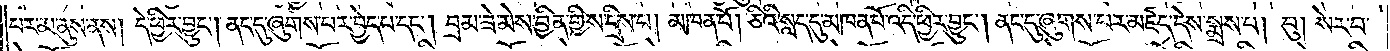པར་མ་ནུས་ནས། དེ་ཕྱིར་བྱུང༌། ནང་དུ་ཞུགས་པར་བྱེད་པ་དང༌། བྲམ་ཟེ་མེས་བྱིན་གྱིས་དྲིས་པ། མཁན་པོ། ཅིའི་སླད་དུ་མཁན་པོ་འདི་ཕྱིར་བྱུང༌། ནང་དུ་ཞུགས་པར་མཛད་དེས་སྨྲས་པ། བུ། སེར་བ་
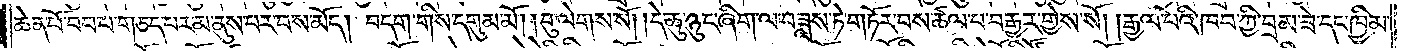ཆེན་པོ་བབ་པ་གཅད་པར་མ་ནུས་པར་བས་མོད། བདག་གིས་དགུམ་མོ། བུ་ལེགས་སོ། །དེ་ཆུ་ཉུང་ཞིག་ལ་བཟླས་ཏེ་གཏོར་བས་ཚལ་པ་བརྒྱར་གྱེས་སོ། །རྒྱལ་པོའི་ཁབ་ཀྱི་བྲམ་ཟེ་དང་ཁྱིམ་
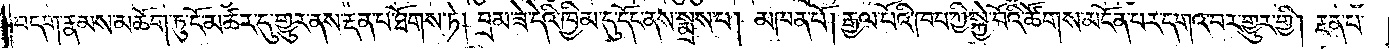བདག་རྣམས་མཆོག་ཏུ་ངོ་མཚར་དུ་གྱུར་ནས་རྔན་པ་ཐོགས་ཏེ། བྲམ་ཟེ་དེའི་ཁྱིམ་དུ་དོང་ནས་སྨྲས་པ། མཁན་པོ། རྒྱལ་པོའི་ཁབ་ཀྱི་སྐྱེ་བོའི་ཚོགས་མངོན་པར་དགའ་བར་གྱུར་གྱི། རྔན་པ་
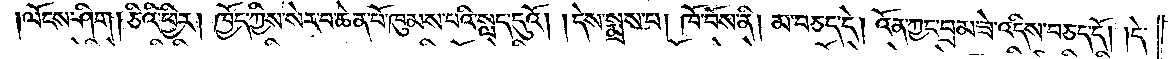ལོངས་ཤིག །ཅིའི་ཕྱིར། ཁྱོད་ཀྱིས་སེར་བ་ཆེན་པོ་ཁུམས་པའི་སླད་དུའོ། །དེས་སྨྲས་པ། ཁོ་བོས་ནི། མ་བཅད་དེ། འོན་ཀྱང་བྲམ་ཟེ་འདིས་བཅད་དོ། །དེ་
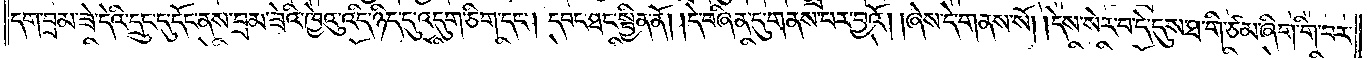དག་བྲམ་ཟེ་དེའི་དྲུང་དུ་དོང་ནས་བྲམ་ཟེའི་ཁྱེའུ་འདི་ཉིད་དུ་འདུག་ཅིག་དང༌། དབང་ཐང་སྦྱིན་ནོ། །དེ་བཞིན་དུ་གནས་པར་བྱའོ། །ཞེས་དེ་གནས་སོ། །དེས་སེར་བ་དེ་དུས་ཐ་གི་ཙམ་ཞིག་གི་བར་
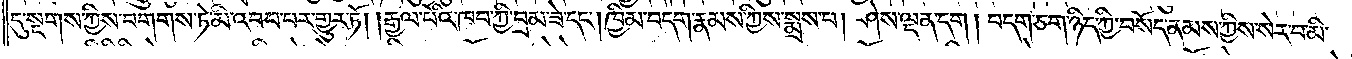དུ་སྔགས་ཀྱིས་བགགས་ཏེ་མི་འབབ་པར་གྱུར་ཏོ། །རྒྱལ་པོའི་ཁབ་ཀྱི་བྲམ་ཟེ་དང༌། ཁྱིམ་བདག་རྣམས་ཀྱིས་སྨྲས་པ། ཤེས་ལྡན་དག །བདག་ཅག་ཉིད་ཀྱི་བསོད་ནམས་ཀྱིས་སེར་བ་མི་
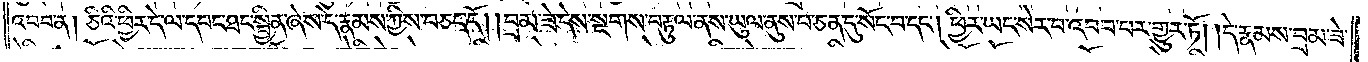འབབ་ན། ཅིའི་ཕྱིར་དེ་ལ་དབང་ཐང་སྦྱིན་ཞེས་དེ་རྣམས་ཀྱིས་བཅད་དོ། །བྲམ་ཟེ་དེས་སྔགས་བརྟུལ་ནས་ཡུལ་ནུས་པ་ཅན་དུ་སོང་བ་དང་ཕྱིར་ཡང་སེར་བ་འབབ་པར་གྱུར་ཏོ། །དེ་རྣམས་བྲམ་ཟེ་
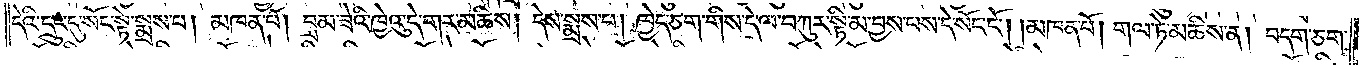དེའི་དྲུང་དུ་སོང་སྟེ་སྨྲས་པ། མཁན་པོ། བྲམ་ཟེའི་ཁྱེའུ་དེ་གར་མཆིས། དེས་སྨྲས་པ། ཁྱེད་ཅག་གིས་དེ་ལ་བཀུར་སྟི་མ་བྱས་པས་དེ་སོང་ངོ༌། །མཁན་པོ། གལ་ཏེ་མཆིས་ན། བདག་ཅག་
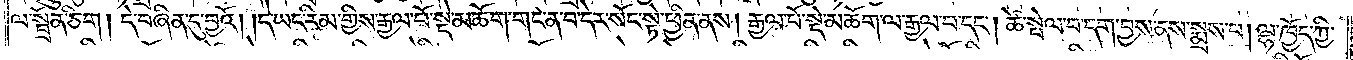ལ་སྦྲོན་ཅིག །དེ་བཞིན་དུ་བྱའོ། །དེ་ཡང་རིམ་གྱིས་རྒྱལ་པོ་སྡེ་མཆོག་གང་ན་བ་དེར་སོང་སྟེ་ཕྱིན་ནས། རྒྱལ་པོ་སྡེ་མཆོག་ལ་རྒྱལ་བ་དང༌། ཚེ་སྤེལ་བ་དག་བྱས་ནས་སྨྲས་པ། ལྷ་ཁྱོད་ཀྱི་
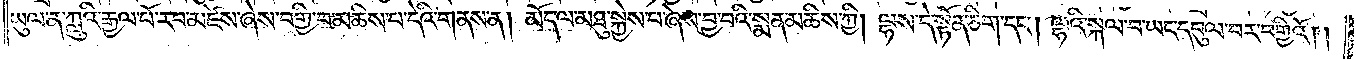ཡུལ་ན་ཀླུའི་རྒྱལ་པོ་རབ་མཛེས་ཞེས་བགྱི་བ་མཆིས་པ་དེའི་གནས་ན། མོད་ལ་མཐུ་སྐྱེས་པ་ཞེས་བྱ་བའི་སྨན་མཆིས་ཀྱི། ལྷས་དེ་སྟོན་ཅིག་དང༌། ལྷའི་སྐལ་བ་ཡང་དབུལ་བར་བགྱིའོ། །
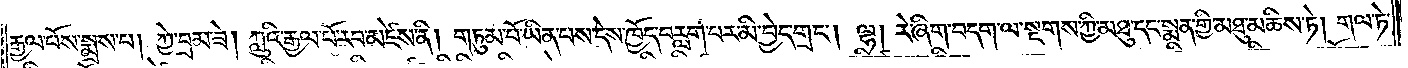རྒྱལ་པོས་སྨྲས་པ། ཀྱེ་བྲམ་ཟེ། ཀླུའི་རྒྱལ་པོ་རབ་མཛེས་ནི། གཏུམ་པོ་ཡིན་པས་དེས་ཁྱོད་བརླག་པར་མི་བྱེད་གྲང༌། ལྷ། རེ་ཞིག་བདག་ལ་སྔགས་ཀྱི་མཐུ་དང་སྨན་གྱི་མཐུ་མཆིས་ཏེ། གལ་ཏེ་
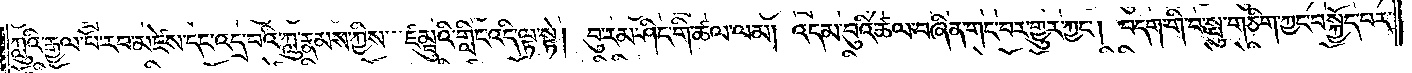ཀླུའི་རྒྱལ་པོ་རབ་མཛེས་དང་འདྲ་བའི་ཀླུ་རྣམས་ཀྱིས་ཛམྦུའི་གླིང་འདི་ལྟ་སྟེ། བུ་རམ་ཤིང་གི་ཚལ་ལམ། འདམ་བུའི་ཚལ་བཞིན་གང་བར་གྱུར་ཀྱང༌། བདག་གི་བ་སྤུ་གཅིག་ཀྱང་བསྐྱོད་པར་
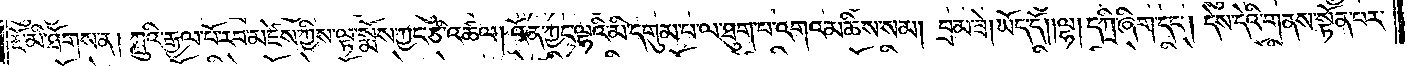རྔོ་མི་ཐོགས་ན། ཀླུའི་རྒྱལ་པོ་རབ་མཛེས་ཀྱིས་ལྟ་སྨོས་ཀྱང་ཅི་འཚལ། འོན་ཀྱང་ལྷའི་མི་དགུམ་པ་ལ་ཐུག་པ་འགའ་མཆིས་སམ། བྲམ་ཟེ། ཡོད་དོ། །ལྷ། དཀྲི་ཞིག་དང༌། དེས་དེའི་གནས་སྟོན་པར་
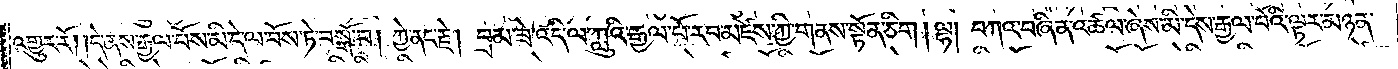འགྱུར་རོ། །དེ་ནས་རྒྱལ་པོས་མི་དེ་ལ་བོས་ཏེ་བསྒོ་བ། ཀྱེ་ནང་རྗེ། བྲམ་ཟེ་འདི་ལ་ཀླུའི་རྒྱལ་པོ་རབ་མཛེས་ཀྱི་གནས་སྟོན་ཅིག །ལྷ། བཀའ་བཞིན་འཚལ་ཞེས་མི་དེས་རྒྱལ་པོའི་ལྟར་མཉན་
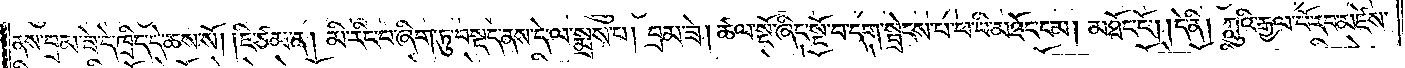ནས་བྲམ་ཟེ་དེ་ཁྲིད་དེ་ཆས་སོ། །ཇི་ཙམ་ན། མི་རིང་བ་ཞིག་ཏུ་བསྡད་ནས་དེ་ལ་སྨྲས་པ། བྲམ་ཟེ། ཚལ་སྔོ་ཞིང་སྔོ་བ་དག་སྦྲེངས་པ་ཕ་བི་མཐོང་ངམ། མཐོང་ངོ༌། །དེ་ནི། ཀླུའི་རྒྱལ་པོ་རབ་མཛེས་
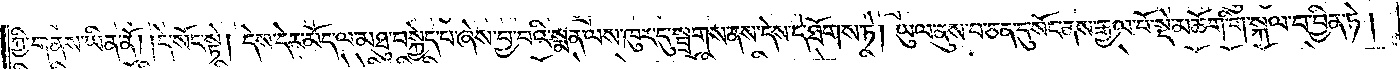ཀྱི་གནས་ཡིན་ནོ། །དེ་སོང་སྟེ། དེས་དེར་མོད་ལ་མཐུ་བསྐྱེད་པ་ཞེས་བྱ་བའི་སྨན་ལས་ཁུར་དུ་སྦྲགས་ནས་དེས་དེ་ཐོགས་ཏེ། ཡུལ་ནུས་པ་ཅན་དུ་སོང་ནས་རྒྱལ་པོ་སྡེ་མཆོག་གི་སྐལ་པ་བྱིན་ཏེ།
